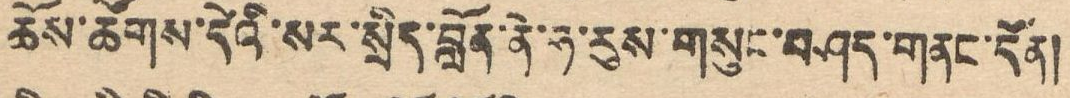ཆོས་ཚོགས་དེའི་སར་སྲིད་བློན་ནེ་ཧ་རུས་གསུང་བཤད་གནང་དོན།
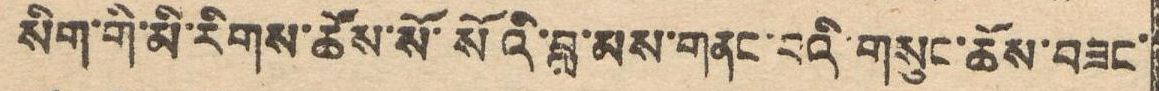སིག་གི་མི་རིགས་ཚོས་སོ་སོའི་བླ་མས་གནང་བའི་གསུང་ཆོས་བཟང་
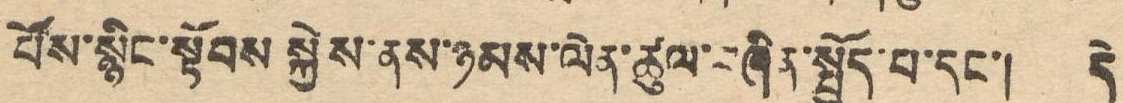པོས་སྙིང་སྟོབས སྐྱེས་ནས་ཉམས་ལེན་ཚུལ་བཞིན་སྤྱོད་པ་དང་། དེ
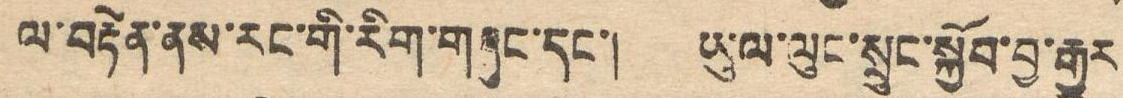ལ་བརྟེན་ནས་རང་གི་རིག་གཞུང་དང་། ཡུལ་ལུང་སྲུང་སྐྱོབ་བྱ་རྒྱུར
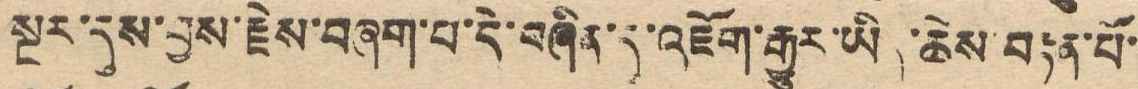སྔར་དུས་བྱས་རྗེས་བཞག་པ་དེ་བཞིན་དུ་འཇོག་རྒྱུར་ཡིད་ཆེས་བརྟན་པོ་
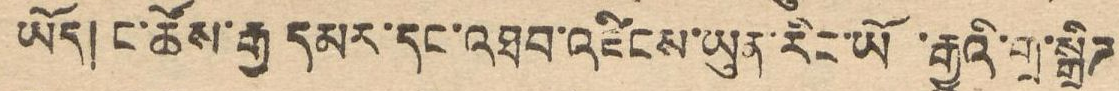ཡོད། ང་ཚོས་རྒྱ དམར་དང་འཐབ་འཛིངས་ཡུན་རིང་ཡོ ་རྒྱུའི་གྲ་སྒྲིཊ
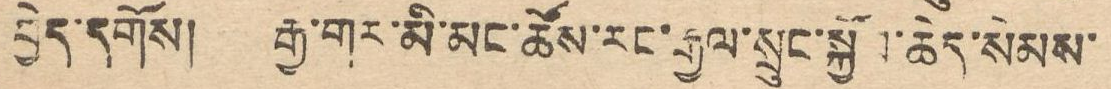བྱེད་དགོས། རྒྱ་གར་མི་མང་ཚོས་རང་རྒྱལ་སྲུང་སྐྱོབ་ཆེད་སེམས་
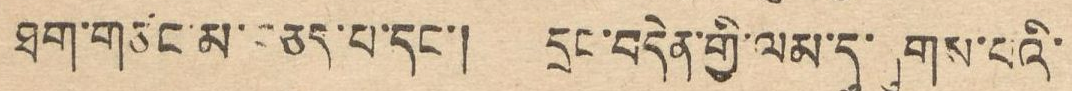ཐག་གཙང་མ་བཅད་པ་དང་། དྲན་བདེན་གྱི་ལམ་དུ་ཞུགས་པའི་
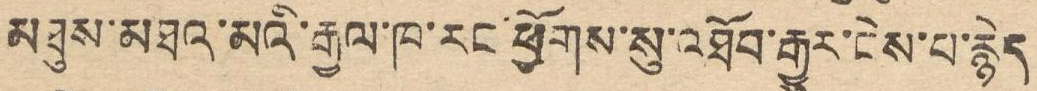མཐུས་མཐའ་མའི་རྒྱལ་ཁ་རང་ཕྱོགས་སུ་འཐོབ་རྒྱུར་ངེས་པ་རྙེད
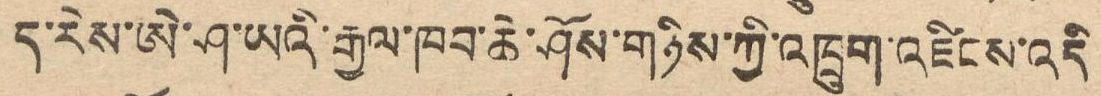ད་རེས་ཨེ་ཤ་ཡའི་རྒྱལ་ཁབ་ཆེ་ཤོས་གཉིས་ཀྱི་འཁྲུག་འཛིངས་འདི
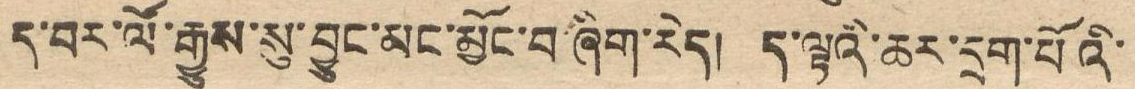ད་བར་ལོ་རྒྱུས་སུ་བྱུང་མང་མྱོང་བ་ཞིག་རེད། ད་ལྟའི་ཆར་དྲག་པོའི་
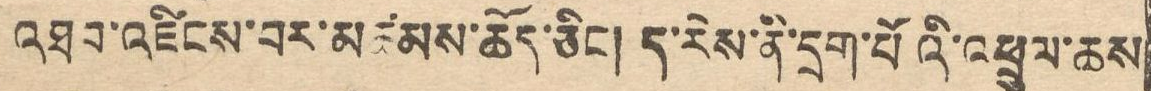འཐབ་འཛིངས་བར་མཚམས་ཆོད་ཅིང། ད་རེས་ནི་དྲག་པོའི་འཕྲུལ་ཆས
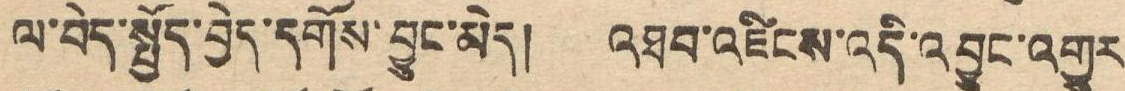ལ་བདེ་སྤྱོད་བྱེད་དགོས་བྱུང་མེད། འཐབ་འཛིངས་འདི་འབྱུང་འགྱུར
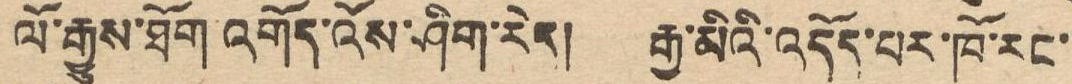ལོ་རྒྱུས་ཐོག འགོད་འོས་ཤིག་རེད། རྒྱ་མིའི་འདོད་པར་ཁོ་རང་
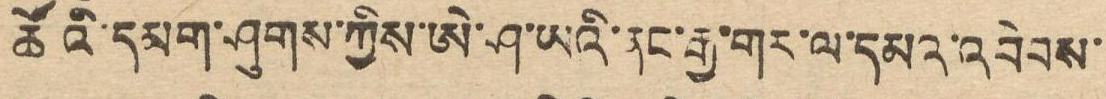ཚོའི་དམག་ཤུགས་ཀྱིས་ཨེ་ཤ་ཡའི་ནང་རྒྱ་གར་ལ་དམའ་འབེབས་
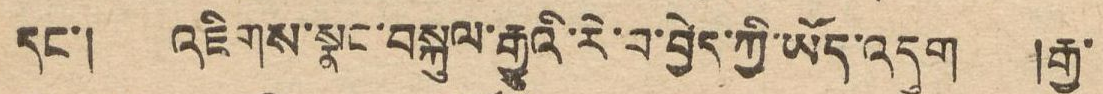དང་། འཇིགས་སྣང་བསྐུལ་རྒྱུའི་རེ་བ་བྱེད་ཀྱི་ཡོད་འདུག །རྒྱ་
